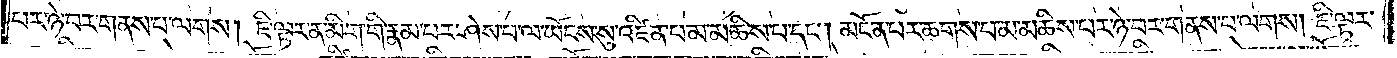པར་ཉེ་བར་གནས་པ་ལགས། ཇི་ལྟར་ན་མིག་གི་རྣམ་པར་ཤེས་པ་ལ་ཡོངས་སུ་འཛིན་པ་མ་མཆིས་པ་དང༌། མངོན་པར་ཆགས་པ་མ་མཆིས་པར་ཉེ་བར་གནས་པ་ལགས། ཇི་ལྟར་
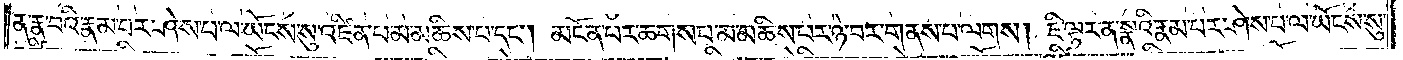ན་རྣ་བའི་རྣམ་པར་ཤེས་པ་ལ་ཡོངས་སུ་འཛིན་པ་མ་མཆིས་པ་དང༌། མངོན་པར་ཆགས་པ་མ་མཆིས་པར་ཉེ་བར་གནས་པ་ལགས། ཇི་ལྟར་ན་སྣའི་རྣམ་པར་ཤེས་པ་ལ་ཡོངས་སུ་
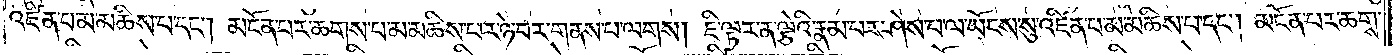འཛིན་པ་མ་མཆིས་པ་དང༌། མངོན་པར་ཆགས་པ་མ་མཆིས་པར་ཉེ་བར་གནས་པ་ལགས། ཇི་ལྟར་ན་ལྕེའི་རྣམ་པར་ཤེས་པ་ལ་ཡོངས་སུ་འཛིན་པ་མ་མཆིས་པ་དང༌། མངོན་པར་ཆགས་
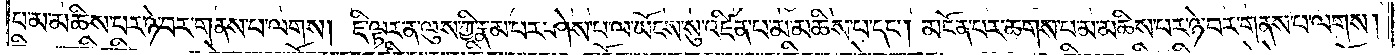པ་མ་མཆིས་པར་ཉེ་བར་གནས་པ་ལགས། ཇི་ལྟར་ན་ལུས་ཀྱི་རྣམ་པར་ཤེས་པ་ལ་ཡོངས་སུ་འཛིན་པ་མ་མཆིས་པ་དང༌། མངོན་པར་ཆགས་པ་མ་མཆིས་པར་ཉེ་བར་གནས་པ་ལགས།
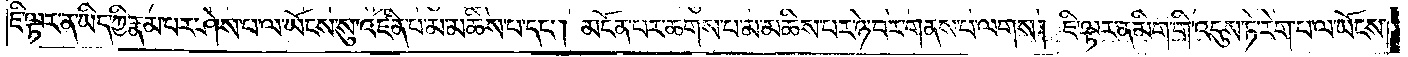ཇི་ལྟར་ན་ཡིད་ཀྱི་རྣམ་པར་ཤེས་པ་ལ་ཡོངས་སུ་འཛིན་པ་མ་མཆིས་པ་དང༌། མངོན་པར་ཆགས་པ་མ་མཆིས་པར་ཉེ་བར་གནས་པ་ལགས། ཇི་ལྟར་ན་མིག་གི་འདུས་ཏེ་རེག་པ་ལ་ཡོངས་
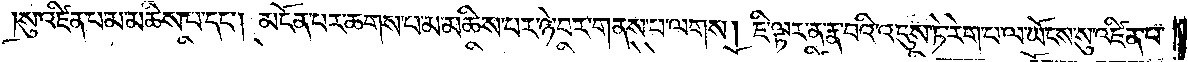སུ་འཛིན་པ་མ་མཆིས་པ་དང༌། མངོན་པར་ཆགས་པ་མ་མཆིས་པར་ཉེ་བར་གནས་པ་ལགས། ཇི་ལྟར་ན་རྣ་བའི་འདུས་ཏེ་རེག་པ་ལ་ཡོངས་སུ་འཛིན་པ་
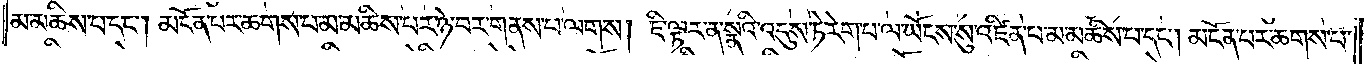མ་མཆིས་པ་དང༌། མངོན་པར་ཆགས་པ་མ་མཆིས་པར་ཉེ་བར་གནས་པ་ལགས། ཇི་ལྟར་ན་སྣའི་འདུས་ཏེ་རེག་པ་ལ་ཡོངས་སུ་འཛིན་པ་མ་མཆིས་པ་དང༌། མངོན་པར་ཆགས་པ་
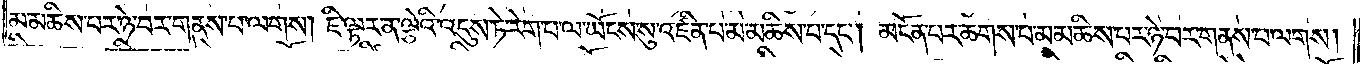མ་མཆིས་བར་ཉེ་བར་གནས་པ་ལགས། ཇི་ལྟར་ན་ལྕེའི་འདུས་ཏེ་རེག་པ་ལ་ཡོངས་སུ་འཛིན་པ་མ་མཆིས་པ་དང༌། མངོན་པར་ཆགས་པ་མ་མཆིས་པར་ཉེ་བར་གནས་པ་ལགས།
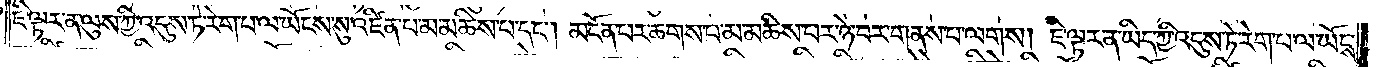ཇི་ལྟར་ན་ལུས་ཀྱི་འདུས་ཏེ་རེག་པ་ལ་ཡོངས་སུ་འཛིན་པ་མ་མཆིས་པ་དང༌། མངོན་པར་ཆགས་པ་མ་མཆིས་པར་ཉེ་བར་གནས་པ་ལགས། ཇི་ལྟར་ན་ཡིད་ཀྱི་འདུས་ཏེ་རེག་པ་ལ་ཡོངས་
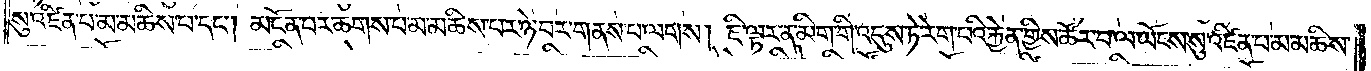སུ་འཛིན་པ་མ་མཆིས་པ་དང༌། མངོན་པར་ཆགས་པ་མ་མཆིས་པར་ཉེ་བར་གནས་པ་ལགས། ཇི་ལྟར་ན་མིག་གི་འདུས་ཏེ་རེག་པའི་རྐྱེན་གྱིས་ཚོར་བ་ལ་ཡོངས་སུ་འཛིན་པ་མ་མཆིས་
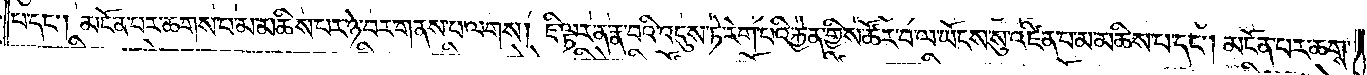པ་དང༌། མངོན་པར་ཆགས་པ་མ་མཆིས་པར་ཉེ་བར་གནས་པ་ལགས། ཇི་ལྟར་ན་རྣ་བའི་འདུས་ཏེ་རེག་པའི་རྐྱེན་གྱིས་ཚོར་བ་ལ་ཡོངས་སུ་འཛིན་པ་མཆིས་པ་དང༌། མངོན་པར་ཆགས་
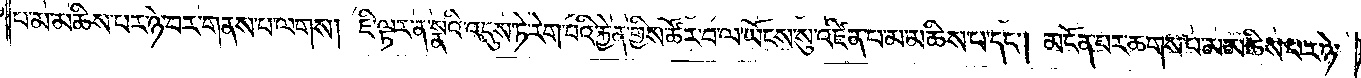པ་མ་མཆིས་པར་ཉེ་བར་གནས་པ་ལགས། ཇི་ལྟར་ན་སྣའི་འདུས་ཏེ་རེག་པའི་རྐྱེན་གྱིས་ཚོར་བ་ལ་ཡོངས་སུ་འཛིན་པ་མ་མཆིས་པ་དང༌། མངོན་པར་ཆགས་པ་མ་མཆིས་པར་ཉེ་
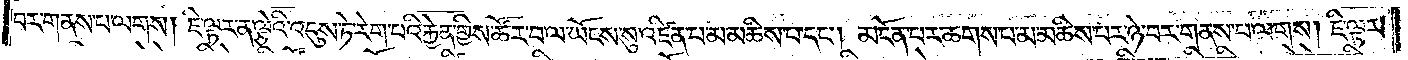བར་གནས་པ་ལགས། ཇི་ལྟར་ན་ལྕེའི་འདུས་ཏེ་རེག་པའི་རྐྱེན་གྱིས་ཚོར་བ་ལ་ཡོངས་སུ་འཛིན་པ་མ་མཆིས་པ་དང༌། མངོན་པར་ཆགས་པ་མ་མཆིས་པར་ཉེ་བར་གནས་པ་ལགས། ཇི་ལྟར་
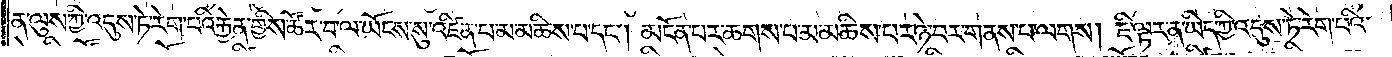ན་ལུས་ཀྱི་འདུས་ཏེ་རེག་པའི་རྐྱེན་གྱིས་ཚོར་བ་ལ་ཡོངས་སུ་འཛིན་པ་མ་མཆིས་པ་དང༌། མངོན་པར་ཆགས་པ་མ་མཆིས་པར་ཉེ་བར་གནས་པ་ལགས། ཇི་ལྟར་ན་ཡིད་ཀྱི་འདུས་ཏེ་རེག་པའི་
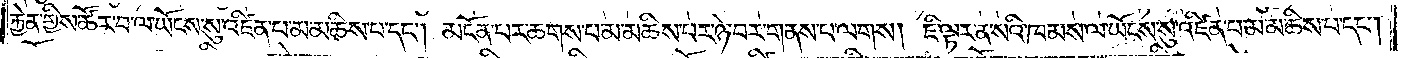རྐྱེན་གྱིས་ཚོར་བ་ལ་ཡོངས་སུ་འཛིན་པ་མ་མཆིས་པ་དང༌། མངོན་པར་ཆགས་པ་མ་མཆིས་པར་ཉེ་བར་གནས་པ་ལགས། ཇི་ལྟར་ན་སའི་ཁམས་ལ་ཡོངས་སུ་འཛིན་པ་མ་མཆིས་པ་དང༌།
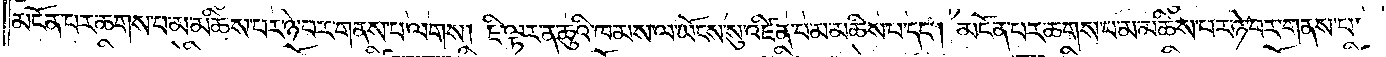མངོན་པར་ཆགས་པ་མ་མཆིས་པར་ཉེ་བར་གནས་པ་ལགས། ཇི་ལྟར་ན་ཆུའི་ཁམས་ལ་ཡོངས་སུ་འཛིན་པ་མ་མཆིས་པ་དང༌། མངོན་པར་ཆགས་པ་མ་མཆིས་པར་ཉེ་བར་གནས་པ་
